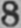8
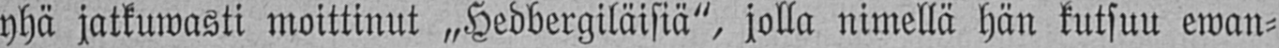yhä jatkuwasti moittinut „Hedbergiläisiä", jolla nimellä hän kutsuu ewan-
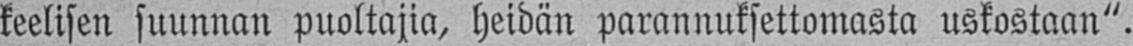keelisen suunnan puoltajia, heidän parannuksettomasta uskostaan".
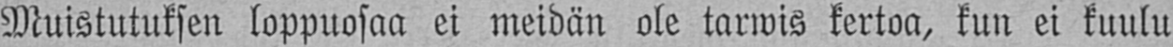Muistutuksen loppuosaa ei meidän ole tarwis kertoa, kun ei kuulu
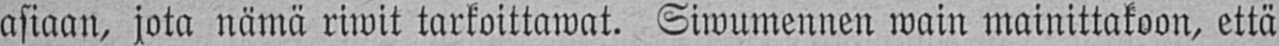asiaan, jota nämä riwit tarkoittawat. Siwumennen wain mainittakoon, että
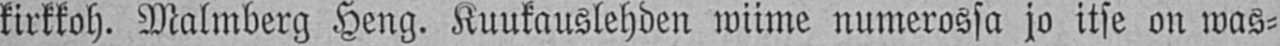kirkkoh. Malmberg Heng. Kuukauslehden wiime numerossa jo itse on was-
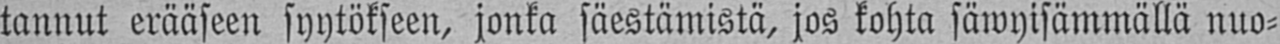tannut erääseen syytökseen, jonka säestämistä, jos kohta säwyisämmällä nuo-
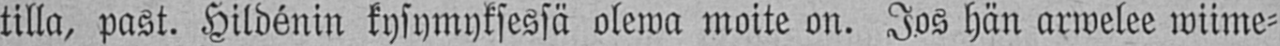tilla, past. Hildénin kysymyksessä olewa moite on. Jos hän arwelee wiime-
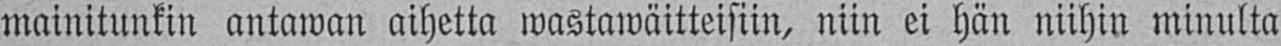mainitunkin antawan aihetta wastawäitteisiin, niin ei hän niihin minulta
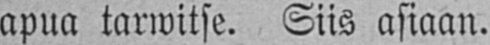apua tarwitse. Siis asiaan.
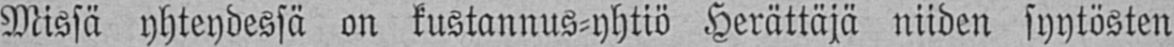Missä yhteydessä on kustannus-yhtiö Herättäjä niiden syytösten
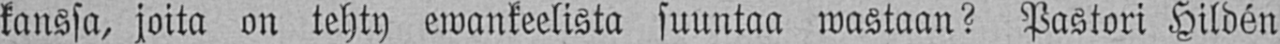kanssa, joita on tehty ewankeelista suuntaa wastaan? Pastori Hildén
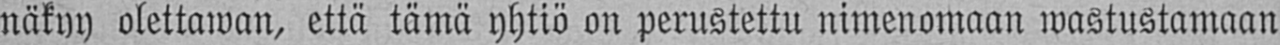näkyy olettawan, että tämä yhtiö on perustettu nimenomaan wastustamaan
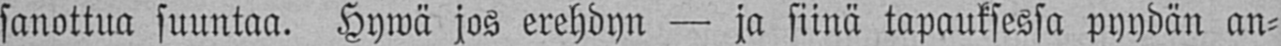sanottua suuntaa. Hywä jos erehdyn — ja siinä tapauksessa pyydän an-
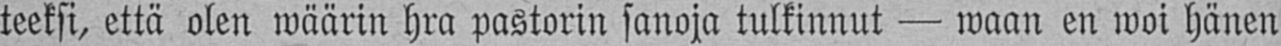teeksi, että olen wäärin hra pastorin sanoja tulkinnut — waan en woi hänen
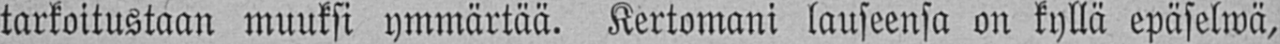tarkoitustaan muuksi ymmärtää. Kertomani lauseensa on kyllä epäselwä,
